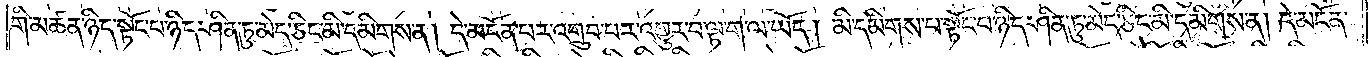གི་མཚན་ཉིད་སྟོང་པ་ཉིད་ཤིན་ཏུ་མེད་ཅིང་མི་དམིགས་ན། དེ་མངོན་པར་འགྲུབ་པར་འགྱུར་བ་ལྟ་ག་ལ་ཡོད། མི་དམིགས་པ་སྟོང་པ་ཉིད་ཤིན་ཏུ་མེད་ཅིང་མི་དམིགས་ན། དེ་མངོན་
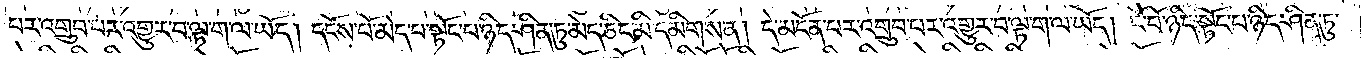པར་འགྲུབ་པར་འགྱུར་བ་ལྟ་ག་ལ་ཡོད། དངོས་པོ་མེད་པ་སྟོང་བ་ཉིད་ཤིན་ཏུ་མེད་ཅིང་མི་དམིགས་ན། དེ་མངོན་པར་འགྲུབ་པར་འགྱུར་བ་ལྟ་ག་ལ་ཡོད། ངོ་བོ་ཉིད་སྟོང་པ་ཉིད་ཤིན་ཏུ་
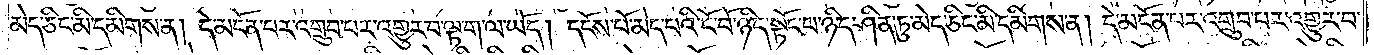མེད་ཅིང་མི་དམིགས་ན། དེ་མངོན་པར་འགྲུབ་པར་འགྱུར་བ་ལྟ་ག་ལ་ཡོད། དངོས་པོ་མེད་པའི་ངོ་བོ་ཉིད་སྟོང་པ་ཉིད་ཤིན་ཏུ་མེད་ཅིང་མི་དམིགས་ན། དེ་མངོན་པར་འགྲུབ་པར་འགྱུར་བ་
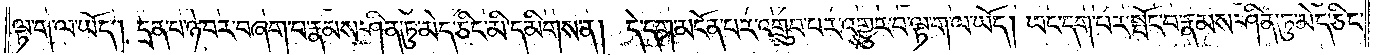ལྟ་ག་ལ་ཡོད། དྲན་པ་ཉེ་བར་བཞག་པ་རྣམས་ཤིན་ཏུ་མེད་ཅིང་མི་དམིགས་ན། དེ་དག་མངོན་པར་འགྲུབ་པར་འགྱུར་བ་ལྟ་ག་ལ་ཡོད། ཡང་དག་པར་སྤོང་བ་རྣམས་ཤིན་ཏུ་མེད་ཅིང་
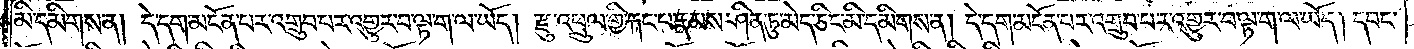མི་དམིགས་ན། དེ་དག་མངོན་པར་འགྲུབ་པར་འགྱུར་བ་ལྟ་ག་ལ་ཡོད། རྫུ་འཕྲུལ་གྱི་རྐང་པ་རྣམས་ཤིན་ཏུ་མེད་ཅིང་མི་དམིགས་ན། དེ་དག་མངོན་པར་འགྲུབ་པར་འགྱུར་བ་ལྟ་ག་ལ་ཡོད། དབང་
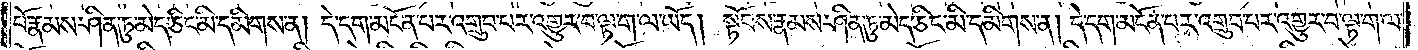པོ་རྣམས་ཤིན་ཏུ་མེད་ཅིང་མི་དམིགས་ན། དེ་དག་མངོན་པར་འགྲུབ་པར་འགྱུར་བ་ལྟ་ག་ལ་ཡོད། སྟོབས་རྣམས་ཤིན་ཏུ་མེད་ཅིང་མི་དམིགས་ན། དེ་དག་མངོན་པར་འགྲུབ་པར་འགྱུར་བ་ལྟ་ག་ལ་
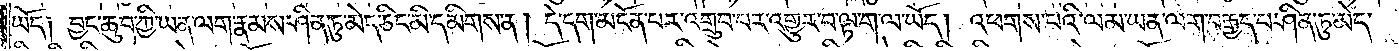ཡོད། བྱང་ཆུབ་ཀྱི་ཡན་ལག་རྣམས་ཤིན་ཏུ་མེད་ཅིང་མི་དམིགས་ན། དེ་དག་མངོན་པར་འགྲུབ་པར་འགྱུར་བ་ལྟ་ག་ལ་ཡོད། འཕགས་པའི་ལམ་ཡན་ལག་བརྒྱད་པ་ཤིན་ཏུ་མེད་
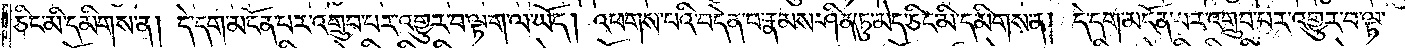ཅིང་མི་དམིགས་ན། དེ་དག་མངོན་པར་འགྲུབ་པར་འགྱུར་བ་ལྟ་ག་ལ་ཡོད། འཕགས་པའི་བདེན་པ་རྣམས་ཤིན་ཏུ་མེད་ཅིང་མི་དམིགས་ན། དེ་དག་མངོན་པར་འགྲུབ་པར་འགྱུར་བ་ལྟ་
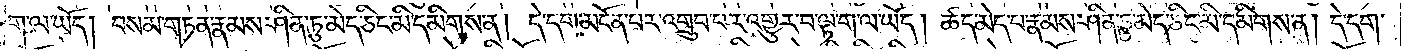ག་ལ་ཡོད། བསམ་གཏན་རྣམས་ཤིན་ཏུ་མེད་ཅིང་མི་དམིགས་ན། དེ་དག་མངོན་པར་འགྲུབ་པར་འགྱུར་པ་ལྟ་ག་ལ་ཡོད། ཚད་མེད་པ་རྣམས་ཤིན་ཏུ་མེད་ཅིང་མི་དམིགས་ན། དེ་དག་
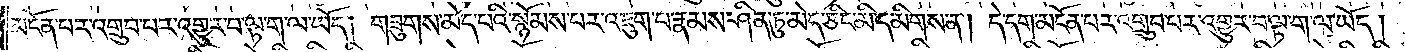མངོན་པར་འགྲུབ་པར་འགྱུར་བ་ལྟ་ག་ལ་ཡོད། གཟུགས་མེད་པའི་སྙོམས་པར་འཇུག་པ་རྣམས་ཤིན་ཏུ་མེད་ཅིང་མི་དམིགས་ན། དེ་དག་མངོན་པར་འགྲུབ་པར་འགྱུར་བ་ལྟ་ག་ལ་ཡོད།
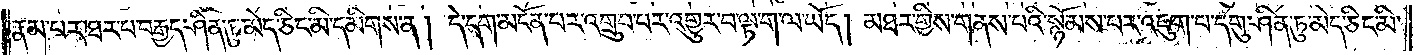རྣམ་པར་ཐར་པ་བརྒྱད་ཤིན་ཏུ་མེད་ཅིང་མི་དམིགས་ན། དེ་དག་མངོན་པར་འགྲུབ་པར་འགྱུར་བ་ལྟ་ག་ལ་ཡོད། མཐར་གྱིས་གནས་པའི་སྙོམས་པར་འཇུག་པ་དགུ་ཤིན་ཏུ་མེད་ཅིང་མི་
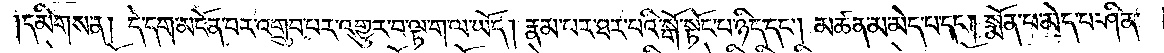དམིགས་ན། དེ་དག་མངོན་པར་འགྲུབ་པར་འགྱུར་བ་ལྟ་ག་ལ་ཡོད། རྣམ་པར་ཐར་པའི་སྒོ་སྟོང་པ་ཉིད་དང༌། མཚན་མ་མེད་པ་དང༌། སྨོན་པ་མེད་པ་ཤིན་
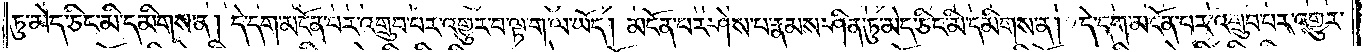ཏུ་མེད་ཅིང་མི་དམིགས་ན། དེ་དག་མངོན་པར་འགྲུབ་པར་འགྱུར་བ་ལྟ་ག་ལ་ཡོད། མངོན་པར་ཤེས་པ་རྣམས་ཤིན་ཏུ་མེད་ཅིང་མི་དམིགས་ན། དེ་དག་མངོན་པར་འགྲུབ་པར་འགྱུར་
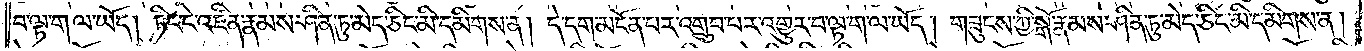བ་ལྟ་ག་ལ་ཡོད། ཏིང་ངེ་འཛིན་རྣམས་ཤིན་ཏུ་མེད་ཅིང་མི་དམིགས་ན། དེ་དག་མངོན་པར་འགྲུབ་པར་འགྱུར་བ་ལྟ་ག་ལ་ཡོད། གཟུངས་ཀྱི་སྒོ་རྣམས་ཤིན་ཏུ་མེད་ཅིང་མི་དམིགས་ན།
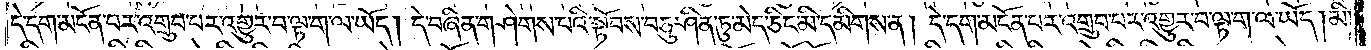དེ་དག་མངོན་པར་འགྲུབ་པར་འགྱུར་བ་ལྟ་ག་ལ་ཡོད། དེ་བཞིན་གཤེགས་པའི་སྟོབས་བཅུ་ཤིན་ཏུ་མེད་ཅིང་མི་དམིགས་ན། དེ་དག་མངོན་པར་འགྲུབ་པར་འགྱུར་བ་ལྟ་ག་ལ་ཡོད། མི་
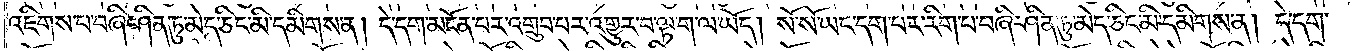འཇིགས་པ་བཞི་ཤིན་ཏུ་མེད་ཅིང་མི་དམིགས་ན། དེ་དག་མངོན་པར་འགྲུབ་པར་འགྱུར་བ་ལྟ་ག་ལ་ཡོད། སོ་སོ་ཡང་དག་པར་རིག་པ་བཞི་ཤིན་ཏུ་མེད་ཅིང་མི་དམིགས་ན། དེ་དག་
